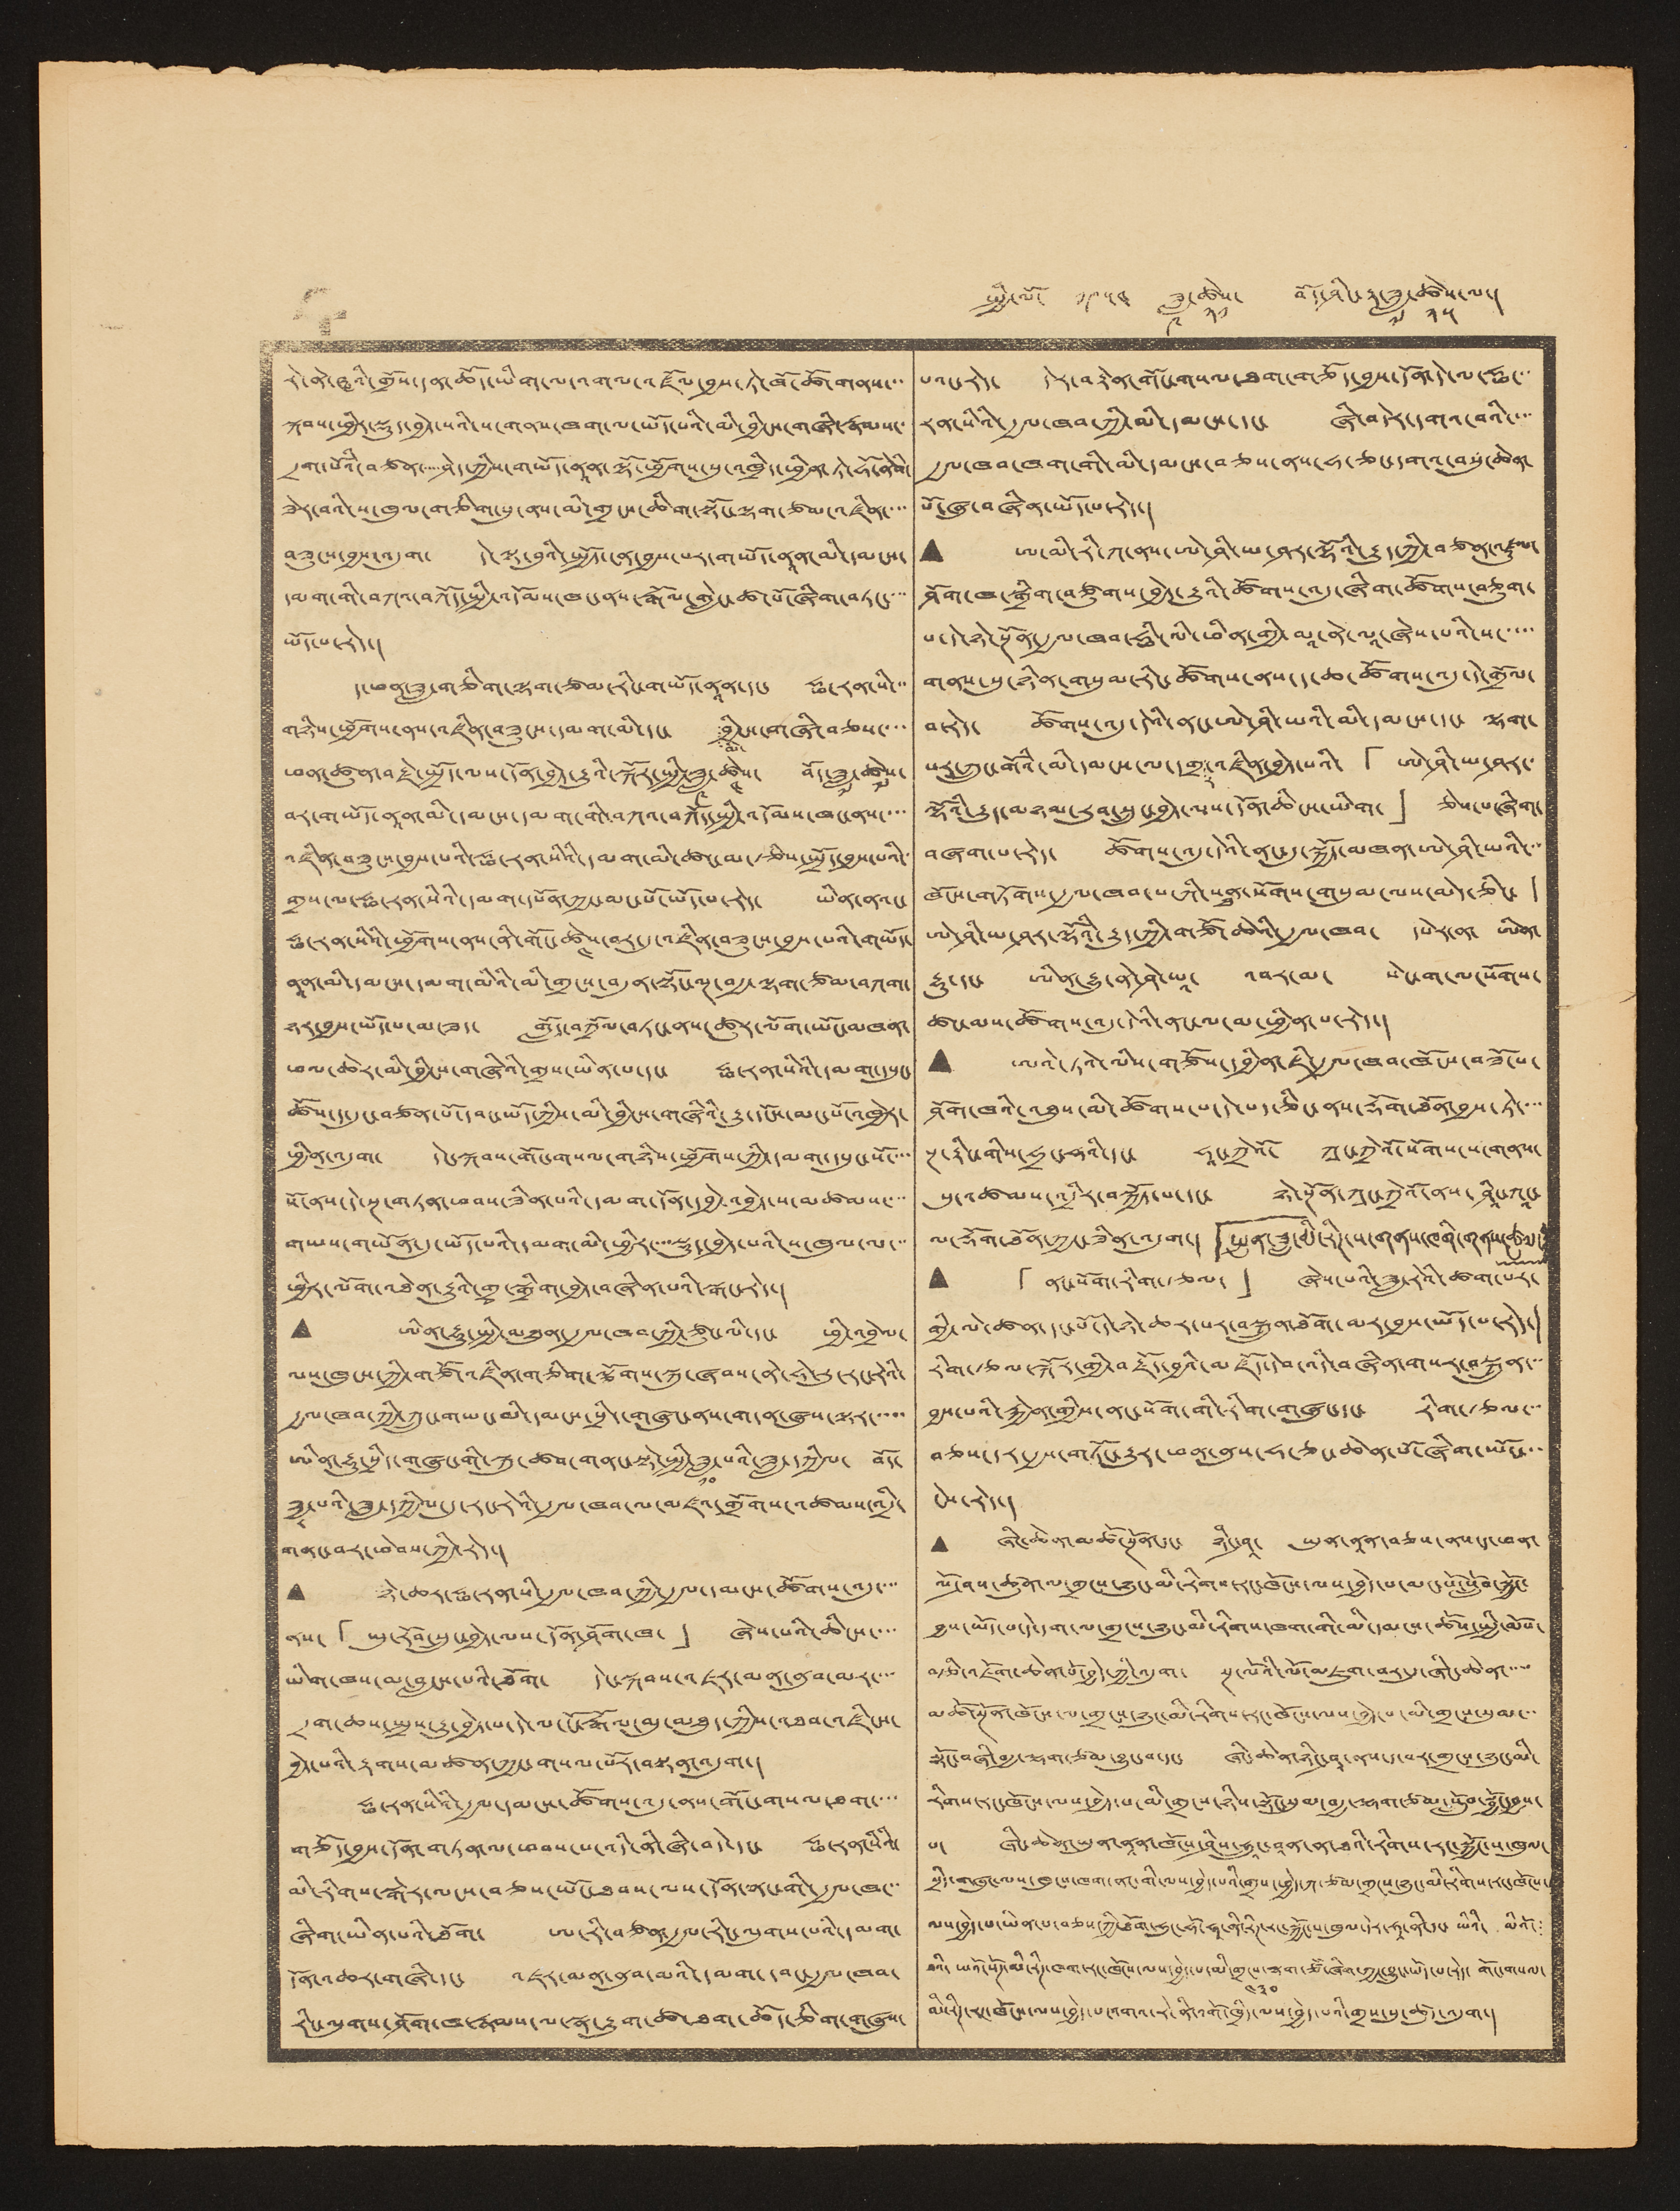སྤྱི་ལོ་ ༡༩༥༤ ཟླ་
༩
ཚེས་
༢༡
བོད་ཤིང་རྟ་ཟླ་
༧
ཚེས་
༢༥
ལ་།
རེ་ནེ་ཝའི་གྲོས་དན་ཆོད་ཡིག་ལ་འགལ་འཛོལབཡས་ཏེ་ཁོ་ཚོ་གནས་་་
སྐབས་ཕྱིར་སྡུད་བྱེད་པའི་ས་གནས་ཁག་ལ་ཡོད་པའི་མི་བྱིངས་གཞི་རྣམས་་
དྲག་པོའི་བཙན་་་་་ཤེད་ཀྱིས་གཡོད་ནཱན་ལྷོ་ཕྱོགས་སུ་འཁྲིད་ཕྱིན་ཏེ་ཧོ་ནེའི་
ཟེར་བའི་ས་ཁུལ་གཅིག་པུ་ནས་མི་གྲངས་ཆིག་སྟོང་ལྷག་ཙམ་འཛིན་་་་
བཟུངས་བྱས་འདུག་ དེ་ལྟ་བུའི་སྤྱོད་ངན་བྱས་པར་གཡོད་ནཱན་མི་དམངས་
དམག་གི་བཀའ་བཀོད་སྤྱི་འདོམས་ཁང་ནས་རྒོལ་གླེང་ཚ་པོ་ཞིག་བཏང་་་་
ཡོད་པ་རེད་།
ད་ཕན་ཟླ་གཅིག་ལྷག་ཙམ་རིང་གཡོད་ནཱན་དང་ ཧྥ་རན་སི་་་
གཉིས་ཕྱོགས་ནས་འཛིན་བཟུངས་དམག་མི་དང་
མི་
བྱིངས་གཞི་བཅས་་་་
ཕན་ཚུན་བརྗེ་སྤྲོད་ལས་དོན་བྱེད་རྒྱུའི་སྐོར་སྤྱི་ཟླ་
༩
ཚེས་
༤
བོད་ཟླ་
༧
ཚེས་
༧
བར་གཡོད་ནཱན་མི་དམངས་དམག་གི་བཀའ་བཀོད་སྤྱི་འདོམས་ཁང་ནས་་་་
འཛིན་བཟུངས་བྱས་པའི་ཧྥ་རན་སིའི་དམག་མི་ཚང་མ་རྩིས་སྤྲོད་བྱས་པའི་
གྲས་ལ་ཧྥ་རན་སིའི་དམག་དཔོན་ཀྱང་མང་པོ་ཡོད་པ་རེད་ ཡིན་ནའང་
ཧྥ་རན་སིའི་ཕྱོགས་ནས་ནི་གོང་
༤
བར་དུ་འཛིན་བཟུངས་བྱས་པའི་གཡོད་
ནཱན་མི་དམངས་དམག་མིའི་མི་གྲངས་བདུན་སྟོང་ལྔ་བརྒྱ་ལྷག་ཙམ་བཀག་
ཉར་བྱས་ཡོད་པ་མ་ཟད་ གློད་བཀྲོལ་བཏང་ནས་ཚུར་ལོག་ཡོང་མཁན་
ཕལ་ཆེར་མི་བྱིངས་གཞིའི་གྲས་ཡིན་པ་དང་ ཧྥ་རན་སིའི་དམག་དཔུང་
ཚོས་ད་དུང་བཙན་པོ་དབང་ཡོད་ཀྱིས་མི་བྱིངས་གཞིའི་རྒྱུ་དངོས་མང་པོ་འཁྱེར་
ཕྱིན་འདུག་ དེང་སྐབས་གོང་གསལ་གཉིས་ཕྱོགས་ཀྱི་དམག་དཔུང་སོ་་་་
སོ་ནས་དེ་སྔ་གཏན་ཕབས་ཟིན་པའི་དམག་དོན་དབྱེ་འབྱེད་ས་མཚམས་་་་
གཡས་གཡོན་དུ་ཡོད་པའི་དམག་མི་ཕྱིར་་་་སྡུད་བྱེད་པའི་ས་ཁུལ་ལ་་་
ཕྱིར་ལོག་འཐེན་རྒྱུའི་གྲྭ་སྒྲིག་བྱེད་བཞིན་པའི་སྒང་རེད་།
• ཨིན་རྷུ་སྤྱི་མཐུན་རྒྱལ་ཁབ་ཀྱི་ཙུང་ལི་དང་ ཕྱི་འབྲེལ་
ལས་ཁུངས་ཀྱི་གཙོ་འཛིན་གཅིག་ལྕོགས་སྐུ་ཞབས་ནེ་ཧེ་རུ་རང་རེའི་
རྒྱལ་ཁབ་ཀྱི་ཀྲུང་གཡང་མི་དམངས་སྲིད་གཞུང་ནས་གདན་ཞུས་ལྟར་་་་་
ཨིན་རྷུ་སྲིད་གཞུང་གི་སྐུ་ཚབ་གནང་སྟེ་སྤྱི་ཟླ་
༡༠
པའི་ཟླ་དཀྱིལ་ བོད་
ཟླ་
༨
པའི་ཟླ་དཀྱིལ་དུ་རང་རེའི་རྒྱལ་ཁབ་ལ་མཛའ་གྲོགས་འཚམས་འདྲི་
གནང་བར་ཕེབས་ཀྱི་རེད་།
• ཉེ་ཆར་ཧྥ་རན་སི་རྒྱལ་ཁབ་ཀྱི་རྒྱལ་དམངས་ཚོགས་འདུ་་་་
ནས་ 「ཡུ་རོབ་སྲུང་བྱེད་ལས་དོན་ཤོག་ཁ་」 ཞེས་པའི་ཆིངས་་་་
ཡིག་ཁས་མ་བླངས་པའི་ཐོག་ དེང་སྐབས་འཇར་མན་ནུབ་མར་་་་
དྲག་ཆས་སྤྲས་རྒྱུ་བྱེད་པ་དེ་ལ་ངོ་རྒོལ་མུ་མཐུད་ཀྱིས་འཐབ་འཛིངས་
བྱེད་པའི་རྟགས་མཚན་ཀྱང་གསལ་པོར་བསྟན་འདུག་།
ཧྥ་རན་སིའི་རྒྱལ་དམངས་ཚོགས་འདུ་ནས་གོང་གསལ་ཐག་་་་
གཅོད་བྱས་དོན་གཏན་ལ་ཕབས་པ་འདི་ནི་ཞི་བདེ་དང་ ཧྥྣ་རན་སིའི་
མི་རིགས་སྒེར་ལངས་བཅས་ཡོང་ཐབས་ལས་དོན་ནང་གི་རྒྱལ་ཁ་་་
ཞིག་ཡིན་པའི་ཐོག་ ཨ་རི་བཙན་རྒྱལ་རིང་ལུགས་པའི་དམག་
དོན་འཆར་གཞི་དང་ འཇར་མན་ནུབ་མའི་དམག་དབང་རྒྱལ་ཁབ་
རིང་ལུགས་ཤོག་ཁ་རྣམས་ལ་སྣ་རྒྱུག་ཚ་ཐག་ཆོད་ཅིག་གཞུས་
པའང་རེད་ དེར་བརྟེན་གོང་གསལ་ཐག་གཅོད་བྱས་དོན་དེ་ལ་ཧྥ་་་
རན་སིའི་རྒྱལ་ཁབ་ཀྱི་མི་དམངས་དང་ ཞི་བདེར་དགའ་བའི་་་་
རྒྱལ་ཁབ་ཁག་གི་མི་དམངས་བཅས་ནས་ཧ་ཅང་དགའ་བསུ་ཆེན་
པོ་ཞུ་བཞིན་ཡོད་པ་རེད་།
• ཨ་མི་རི་ཀ་ནས་ཨེ་ཤི་ཡ་ཤར་ལྷོའི་རྒྱུད་ཀྱི་བཙན་འཛུལ་
ཤོག་ཁ་སྒྲིག་བཙུགས་བྱེད་རྒྱུའི་ཚོགས་འདུ་ཞིག་ཚོགས་བཅུག་
པ་དེ་ཉེ་སྔོན་རྒྱལ་ཁབ་ཧྥི་ལི་ཕིན་གྱི་མཱ་ནེ་ལཱ་ཞེས་པའི་ས་་་་་
གནས་སུ་ཉིན་གསུམ་རིང་ཚོགས་ནས་ད་ཆ་ཚོགས་འདུ་དེ་གྲོལ་
བ་རེད་ ཚོགས་འདུ་དེའི་ནང་ཨེ་ཤི་ཡའི་མི་དམངས་དང་ ལྷག་
པར་ཀྲུང་གོའི་མི་དམངས་ལ་དགྲ
ར
་འཛིན་བྱེད་པའི་ 「ཨེ་ཤི་ཡ་ཤར་་
ལྷོའི་རྒྱུད་མཉམ་རུབ་སྲུང་བྱེད་ལས་དོན་ཆིངས་ཡིག་」 ཅེས་པ་ཞིག་
བཞག་པ་རེད་ ཚོགས་འདུ་དེའི་ནང་དུ་སྐྱོད་མཁན་ཨེ་ཤེ་ཡའི་་་
ཁོངས་གཏོགས་རྒྱལ་ཁབ་པ་ཀི་སནྠ་སོགས་གསུམ་ལས་མེད་ཅིང་ །
ཨེ་ཤི་ཡ་ཤར་ལྷོའི་རྒྱུད་ཀྱི་གཙོ་ཆེའི་རྒྱལ་ཁབ་ དཔེར་ན་ ཨིན་
རྷུ་དང་ ཨིན་རྷུ་ནེ་ཤེ་ཡཱ་ འབར་མ་ སེང་ག་ལ་སོགས་
ཚང་མས་ཚོགས་འདུ་དེའི་ནང་ལ་མ་ཕྱིན་པ་རེད་།
• ཨའེ་ཏའེ་ལིས་གཙོས་དབྱིན་ཇི་རྒྱལ་ཁབ་ཁོངས་བཟོ་པ་
ཤོག་ཁའི་འཐུས་མི་ཚོགས་པ་དེ་པད་ཅིང་ནས་རྡོག་ཐོན་བྱས་ཏེ་་་་
སྔ་རྟིང་གིས་ཧྲང་ཧའི་དང་ ཧཱང་ཀྲེའོ་ ཀྭང་ཀྲེའོ་སོགས་ས་གནས་
སུ་འཚམས་འདྲིར་བསྐྱོད་པ་དང་ ཉེ་སྔོན་ཀྭང་ཀྲེའོ་ནས་ ཤཱིང་ཀཱང་
ལ་རྡོག་ཐོན་ཀྱང་ཟིན་འདུག་། 「སྤུན་ཟླ་མི་རིཊ་ས་གནས་ཁགི་གནས་ཚུལ་」
• 「ནང་སོག་རིག་རྩལ་」 ཞེས་པའི་ཟླ་རེའི་ཚག་པར་
གྱི་ལེ་ཚན་དང་པོ་དེ་ཉེ་ཆར་པར་བསྐྲུན་ཐོག་མར་བྱས་ཡོད་པ་རེད་།
རིག་རྩལ་སྐོར་གྱི་བརྗོད་བྱའི་མཛོད་དེབ་འདི་བཞིན་གསར་བསྐྲུན་་་
བྱས་པའི་རྐྱེན་གྱིས་ནང་སོག་གི་རིག་གཞུང་དང་ རིག་རྩལ་་་
བཅས་དར་རྒྱས་གཏོང་རྒྱུར་ཕན་ནུས་ཧ་ཅང་ཆེན་པོ་ཞིག་ཡོང་་་
ངེས་རེད་།
• ཞིང་ཆེན་མཚོ་སྔོན་དང་ ཉིང་ཤཱ་ ཡུན་ནཱན་བཅས་ནས་ད་ཕན་
ལོ་ཤས་ཚུན་ལ་གྲངས་ཉུང་མི་རིགས་རང་ཁོངས་ལས་བྱེད་པ་མང་པོ་སློབ་སྐྱོང་
བྱས་ཡོད་པ་དེ་དག་ལ་གྲངས་ཉུང་མི་རིགས་ཁག་གི་མི་དམངས་ཚོས་སྤྱི་མོས་
བརྩི་འཇོག་ཆེན་པོ་བྱེད་ཀྱི་འདུག་ སྔ་ལོའི་ལོ་མཇུག་བར་དུ་ཞིང་ཆེན་་་་་
མཚོ་སྔོན་ཁོངས་ལ་གྲངས་ཉུང་མི་རིགས་རང་ཁོངས་ལས་བྱེད་པ་མི་གྲངས་སུམ་་་
སྟོང་བཞི་བརྒྱ་ལྷག་ཙམ་བྱུང་བ་དང་ ཞིང་ཆེན་ཉིང་ཤཱ་ནས་ད་བར་གྲངས་ཉུང་མི་
རིགས་རང་ཁོངས་ལས་བྱེད་པ་མི་གྲངས་ཉིས་སྟོང་སུམ་བརྒྱ་ལྷག་ཙམ་སློབ་སྦྱོང་བྱས་
པ་ ཞིང་ཆེན་ཡུན་ནཱན་ཁོངས་ཤིས་ཧྲཱུང་བཱན་ན་ཐའི་རིགས་རང་སྐྱོང་ས་ཁུལ་
སྲིད་གཞུང་ལས་ཁུངས་ཁག་ནང་གི་ལས་བྱེད་གྲས་ཕྱེད་ཀ་ཙམ་གྲངས་ཉུང་མི་རིགས་རང་ཁོངས་
ལས་བྱེད་པ་ཡིན་པ་བཅས་ཀྱི་ཐོག་ཧུང་ཧོ་ཧཱ་ནི་རིཊ་རང་སྐྱོང་ས་ཁུལ་དེར་ཧཱ་ནི་དང་ ཡིའི་ མིའི་
ཐའི་ ཡའོ་སོཊ་མི་རིཊ་ཁག་རང་ཁོངས་ལས་བྱེད་མི་གྲངས་
༤༣༠
ལྷག་ཙཾ་ཞིག་ཀྱང་བྱུང་ཡོད་པ་རེད་ གོང་གསལ་
མི་རིཊ་རང་ཁོངས་ལས་བྱེད་པ་འགའ་རེ་ནི་འགོ་ཁྲིད་ལས་བྱེད་པའི་གྲས་སུ་ཚུད་འདུག་།
